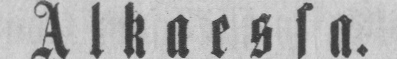Alkaessa.
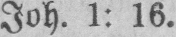Joh. 1: 16.
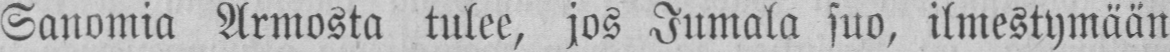Sanomia Armosta tulee, jos Jumala suo, ilmestymään
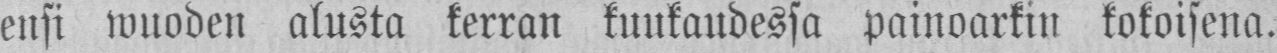ensi wuoden alusta kerran kuukaudessa painoarkin kokoisena.
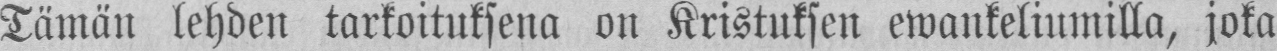Tämän lehden tarkoituksena on Kristuksen ewankeliumilla, joka
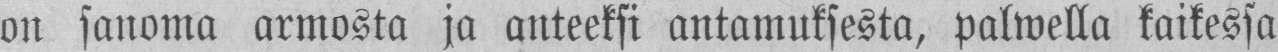on sanoma armosta ja anteeksi antamuksesta, palwella kaikessa
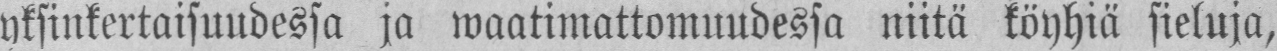yksinkertaisuudessa ja waatimattomuudessa niitä köyhiä sieluja,
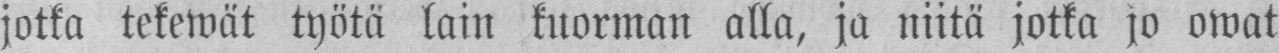jotka tekewät työtä lain kuorman alla, ja niitä jotka jo owat
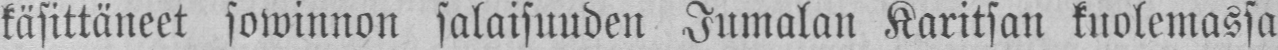käsittäneet sowinnon salaisuuden Jumalan Karitsan kuolemassa
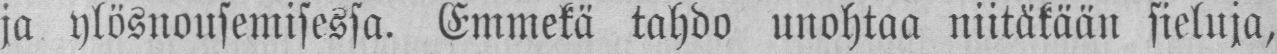ja ylösnousemisessa. Emmekä tahdo unohtaa niitäkään sieluja,
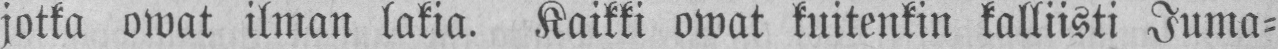jotka owat ilman lakia. Kaikki owat kuitenkin kalliisti Juma-
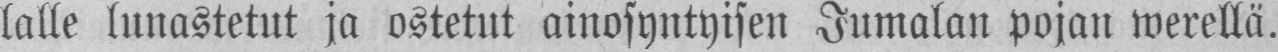lalle lunastetut ja ostetut ainosyntyisen Jumalan pojan werellä.
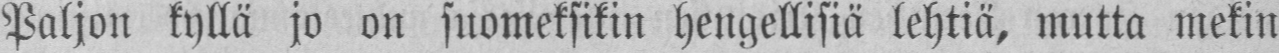Paljon kyllä jo on suomeksikin hengellisiä lehtiä, mutta mekin
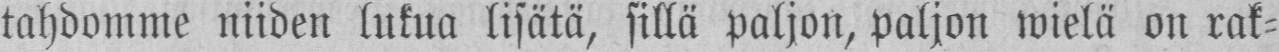tahdomme niiden lukua lisätä, sillä paljon, paljon wielä on rak-
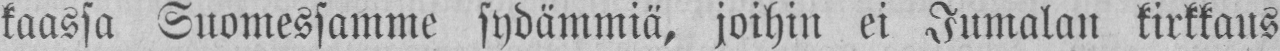kaassa Suomessamme sydämmiä, joihin ei Jumalan kirkkaus
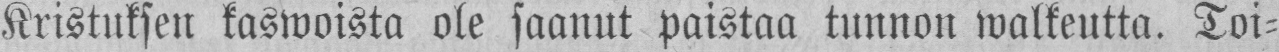Kristuksen kaswoista ole saanut paistaa tunnon walkeutta. Toi-
